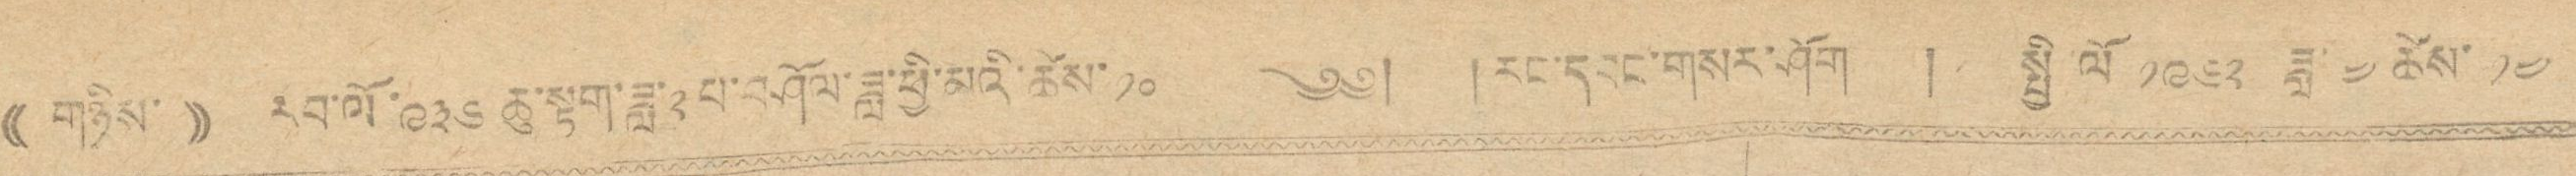( གཉིས་ )) རབ་ལོ་ ༩༣༦ ཆུ་སྟག་ཟླ་༢པ་བཤོལ་ཟླ་ཕྱི་མའི་ཚེས་ ༡༠ ༄༅། །རང་དབང་གསར་ཤོག ། སྤྱི་ལོ ༡༩༦༢ ཟླ་ ༤ ཚེས་ ༡༠
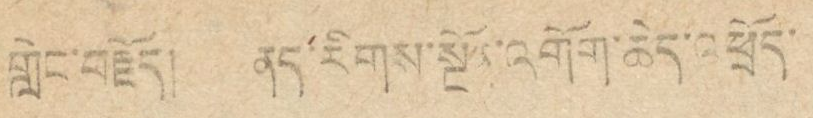གླེང་བརྗོད། ནད་རིགས་སྔོན་འགོག་ཆེད་འཕྲོད་
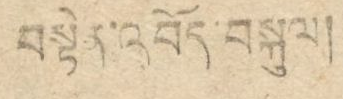བསྟེན་འབོད་བསྐུལ།
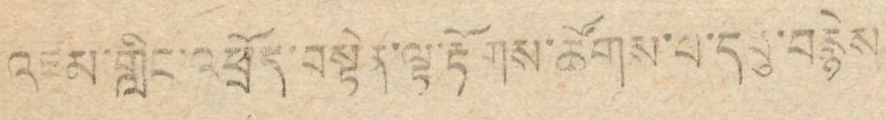འཛམ་གླིང་འཕྲོད་བསྟེན་ལྟ་རྟོགས་ཚོགས་པ་དབུ་བརྙེས་
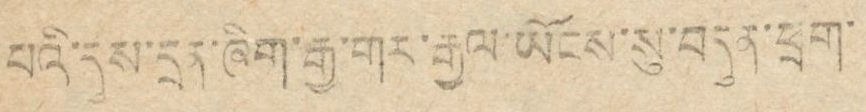པའི་དུས་དྲན་ཞིག་རྒྱ་གར་རྒྱལ་ཡོངས་སུ་བདུན་ཕྲག་
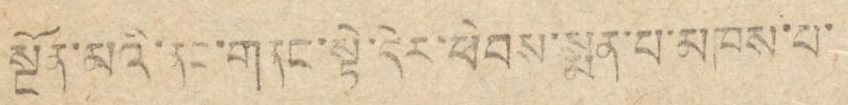སྔོན་མའི་ནང་གནང་སྟེ་དེར་ཕེབས་སྨན་པ་མཁས་པ་
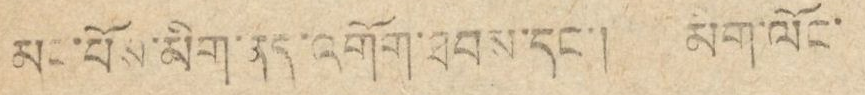མང་པོས་མིག་ནད་འགོག་ཐབས་དང་། མིག་ལོང་
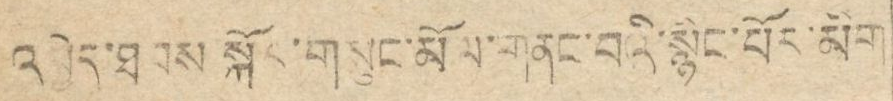འབྱེད་ཐབས སྐོར་གསུང་མོལ་གནང་བའི་སྙིང་པོར་མིག
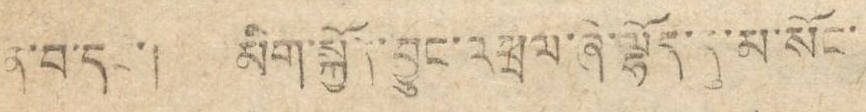ན་བ་དང་། མིག་སྐྱོན་བྱུང་འཕྲལ་ཞེ་ལྷོད་དུ་མ་སོང་
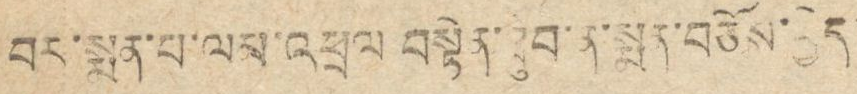བར་སྨན་པ་ལམ་འཕྲལ་བསྟེན་ཐུབ་ན་སྨན་བཅོས་བྱེད་
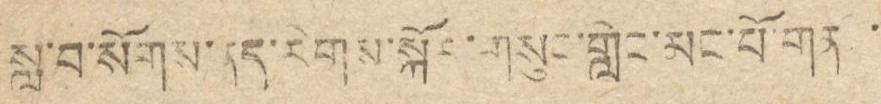སླ་བ་སོགས་ནད་རིགས་སྐོར་གསུང་གླེང་མང་པོ་གནང་
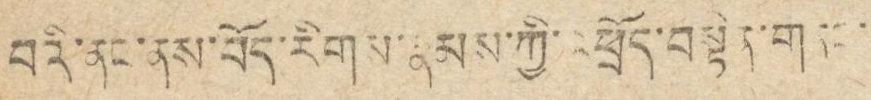བའི་ནང་ནས་བོད་རིགས་རྣམས་ཀྱི་འཕྲོད་བསྟེན་གནང་
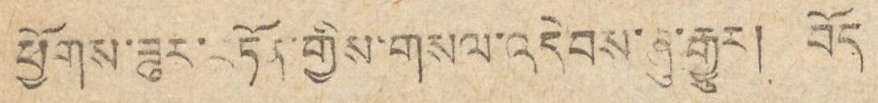ཕྱོགས་ཟུར་བཏོན་གྱིས་གསལ་འདེབས་ཞུ་རྒྱུར། བོད་
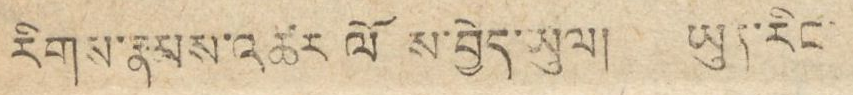རིགས་རྣམས་འཚར་ལོངས་བྱེད་ཡུལ། ཡུན་རིང་
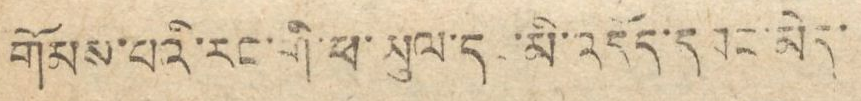གོམས་པའི་རང་གི་ཕ་ཡུལ་དང་མི་འདོད་དབང་མེད་
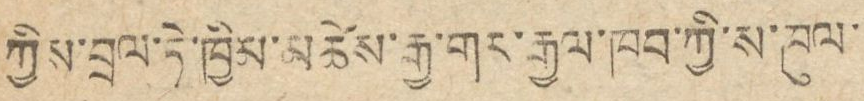ཀྱིས་བྲལ་ཏེ་ཁྱིམ་མཚེས་རྒྱ་གར་རྒྱལ་ཁབ་ཀྱི་ས་ཁུལ་
